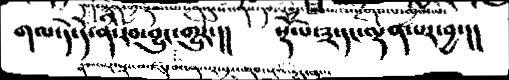གལ་དེ་དེ་ནི་རབ་བྱུང་གྱུར་།།  སྡེ་པ་༣་དང་ལྡན་པར་བྱ་།།
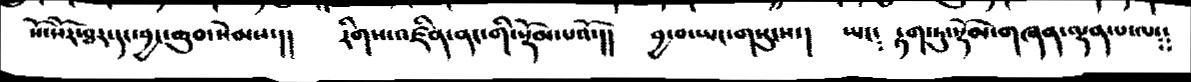སོ་སོར་ཐར་དང་བྱང་ཆུབ་སེམས་།།   རིགས་འཛིན་ནང་གི་སྡོམ་པའོ་།།   བྱ་བ་ཡང་གསུངས་།   ཡང༴    རྟག་ཏུ་སྡོམ་གཞན་ལྡན་པ་ལ༴༴
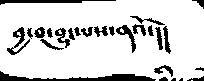བྱ་བ་བྱུང་པས་ནའོ་།།
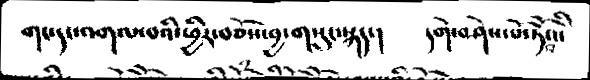གང་དང་འགལ་བའི་ཕྱིར་བཅོས་བྱ་གསུང་སྐད་།   དགེ་བཤེས་པོ་ཏོ་བའི་
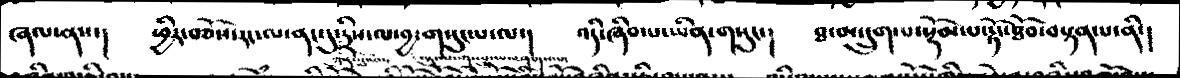ཞལ་ནས་།  ཕྱིར་བཅོས་རང་ལ་ནང་དུ་དྲིས་ལ་བྱ་གསུང་པ་ལ་།  འདི་ཞིབ་པ་ཡིན་གསུང་།   ཐ་མ་དྲུག་པ་སྡོམ་པ་རྟོང་ཐོབ་བསྟན་པ་ནི་།
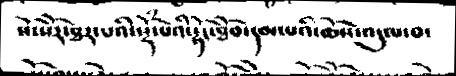སོ་སོར་ཐར་པའི་སྡོཾ་པའི་རྟོང་ཐོབ་དམ་པའི་ཆོས་འདུལ་བ་
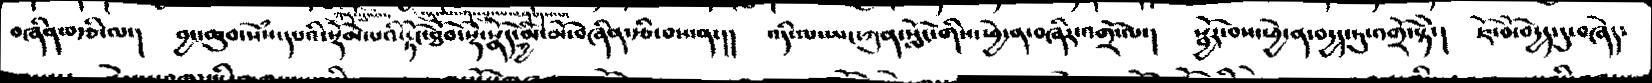བཞིན་བརྩི་ལ་།   བྱང་ཆུབ་སེཾས་དཔའི་སྡོམ་པའི་རྟོང་ཐོབ་སྡེ་སྣོད་ཀྱི་མི་མོ་བཞིན་རྩི་བས་ན་།།  འདི་ལ་ཡང་ཀུན་སློང་གིས་ཕྱེ་ན་བཞིར་འགྲོ་ལ་།  སྦྱོར་བས་ཕྱེ་ན་བདྱད་ཏུ་འགྲོ་སྟེ་།   ཇོ་བོ་བདྱད་དུ་བཞེད་
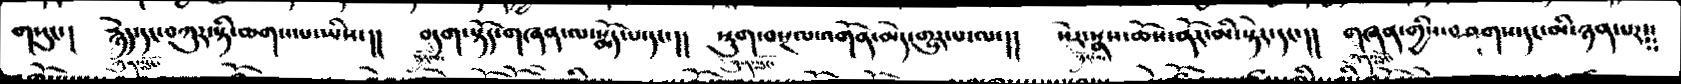གསུང་།   རྙེད་དང་བཀུར་སྟི་ཆགས་པ་ཡིས་།།  བདག་སྟོད་གཞན་ལ་སྨོད་པ་དང་།།  སྡུག་བསྔལ་འགོག་མེད་གྱུར་པ་ལ་།།  སེར་སྣས་ཆོས་ནོར་མི་སྟེར་དང་།།  གཞན་གྱིས་བཤགས་དང་མི་ཉན་པར༴༴
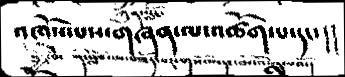འཁོས་པས་གཞན་ལ་འཚོགས་པ་དང་།།
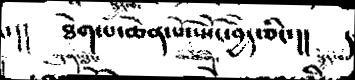་།།  ཐེག་པ་ཆེན་པོ་སྤོང་བྱེད་ཅིང་།།     །
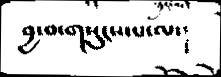བྱ་བ་གསུངས་པ་ལ་།
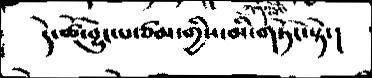དེ་ཚོ་བྱུང་པ་ཙམ་གྱིས་མི་གཏོང་སྟེ་།
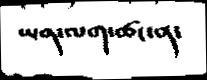ཡན་ལག་ཚང་ན་
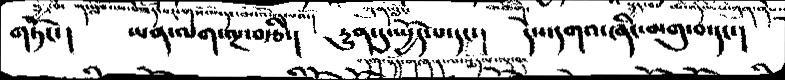གཏོང་།   ཡན་ལག་ལྔ་བརྩི་།  དྱུན་དུ་སྤྱོད་པ་དང་།   དེས་དགའ་ཞིང་མགུ་བ་དང་།
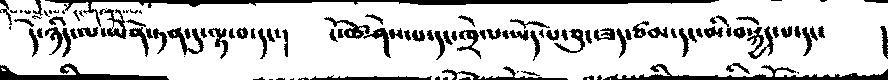དེ་ཉིད་ལ་ཡོན་ཏན་དུ་ལྟ་བ་དང་།    ངོ་ཚ་ཤེས་པ་དང་ཁྲེལ་ཡོད་པ་ཅུང་ཟད་ཙམ་དང་མི་བསྐྱེད་པ་དང་།           །
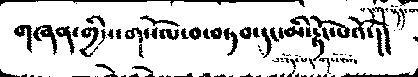གཞན་གྱིས་གསོལ་བ་བཏབ་དང་མི་རྟོང་པའོ་།།
